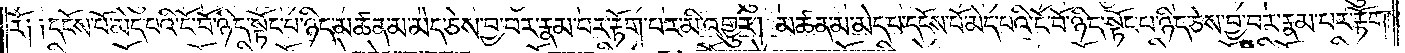རོ༏ ༏དངོས་པོ་མེད་པའི་ངོ་བོ་ཉིད་སྟོང་པ་ཉིད་མཚན་མ་མེད་ཅེས་བྱ་བར་རྣམ་པར་རྟོག་པར་མི་འགྱུར། མཚན་མ་མེད་པ་དངོས་པོ་མེད་པའི་ངོ་བོ་ཉིད་སྟོང་པ་ཉིད་ཅེས་བྱ་བར་རྣམ་པར་རྟོག་
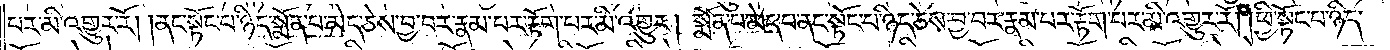པར་མི་འགྱུར་རོ། །ནང་སྟོང་པ་ཉིད་སྨོན་པ་མེད་ཅེས་བྱ་བར་རྣམ་པར་རྟོག་པར་མི་འགྱུར། སྨོན་པ་མེད་པ་ནང་སྟོང་པ་ཉིད་ཅེས་བྱ་བར་རྣམ་པར་རྟོག་པར་མི་འགྱུར་རོ། །ཕྱི་སྟོང་པ་ཉིད་
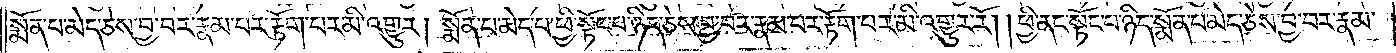སྨོན་པ་མེད་ཅེས་བྱ་བར་རྣམ་པར་རྟོག་པར་མི་འགྱུར། སྨོན་པ་མེད་པ་ཕྱི་སྟོང་པ་ཉིད་ཅེས་བྱ་བར་རྣམ་པར་རྟོག་པར་མི་འགྱུར་རོ། །ཕྱི་ནང་སྟོང་པ་ཉིད་སྨོན་པ་མེད་ཅེས་བྱ་བར་རྣམ་
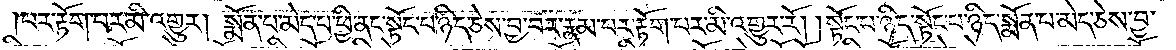པར་རྟོག་པར་མི་འགྱུར། སྨོན་པ་མེད་པ་ཕྱི་ནང་སྟོང་པ་ཉིད་ཅེས་བྱ་བར་རྣམ་པར་རྟོག་པར་མི་འགྱུར་རོ། །སྟོང་པ་ཉིད་སྟོང་པ་ཉིད་སྨོན་པ་མེད་ཅེས་བྱ་
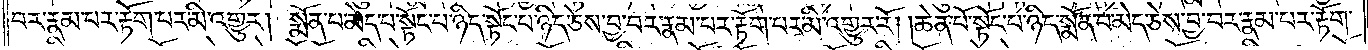བར་རྣམ་པར་རྟོག་པར་མི་འགྱུར། སྨོན་པ་མེད་པ་སྟོང་པ་ཉིད་སྟོང་པ་ཉིད་ཅེས་བྱ་བར་རྣམ་པར་རྟོག་པར་མི་འགྱུར་རོ། །ཆེན་པོ་སྟོང་པ་ཉིད་སྨོན་པ་མེད་ཅེས་བྱ་བར་རྣམ་པར་རྟོག་
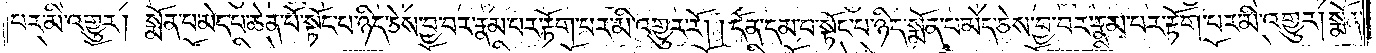པར་མི་འགྱུར། སྨོན་པ་མེད་པ་ཆེན་པོ་སྟོང་པ་ཉིད་ཅེས་བྱ་བར་རྣམ་པར་རྟོག་པར་མི་འགྱུར་རོ། །དོན་དམ་པ་སྟོང་པ་ཉིད་སྨོན་པ་མེད་ཅེས་བྱ་བར་རྣམ་པར་རྟོག་པར་མི་འགྱུར། སྨོན་
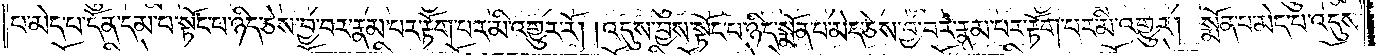པ་མེད་པ་དོན་དམ་པ་སྟོང་པ་ཉིད་ཅེས་བྱ་བར་རྣམ་པར་རྟོག་པར་མི་འགྱུར་རོ། །འདུས་བྱས་སྟོང་པ་ཉིད་སྨོན་པ་མེད་ཅེས་བྱ་བར་རྣམ་པར་རྟོག་པར་མི་འགྱུར། །སྨོན་པ་མེད་པ་འདུས་
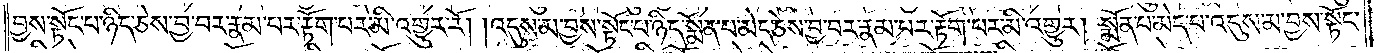བྱས་སྟོང་པ་ཉིད་ཅེས་བྱ་བར་རྣམ་པར་རྟོག་པར་མི་འགྱུར་རོ། །འདུས་མ་བྱས་སྟོང་པ་ཉིད་སྨོན་པ་མེད་ཅེས་བྱ་བར་རྣམ་པར་རྟོག་པར་མི་འགྱུར། སྨོན་པ་མེད་པ་འདུས་མ་བྱས་སྟོང་
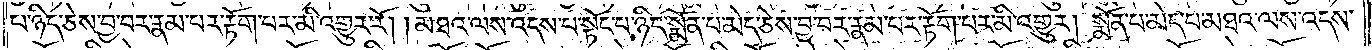པ་ཉིད་ཅེས་བྱ་བར་རྣམ་པར་རྟོག་པར་མི་འགྱུར་རོ། །མཐའ་ལས་འདས་པ་སྟོང་པ་ཉིད་སྨོན་པ་མེད་ཅེས་བྱ་བར་རྣམ་པར་རྟོག་པར་མི་འགྱུར། སྨོན་པ་མེད་པ་མཐའ་ལས་འདས་
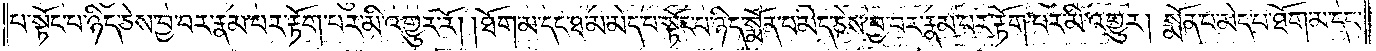པ་སྟོང་པ་ཉིད་ཅེས་བྱ་བར་རྣམ་པར་རྟོག་པར་མི་འགྱུར་རོ། །ཐོག་མ་དང་ཐ་མ་མེད་པ་སྟོང་པ་ཉིད་སྨོན་པ་མེད་ཅེས་བྱ་བར་རྣམ་པར་རྟོག་པར་མི་འགྱུར། སྨོན་པ་མེད་པ་ཐོག་མ་དང་
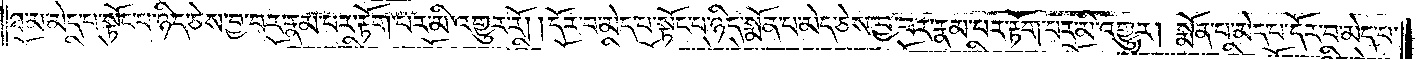ཐ་མ་མེད་པ་སྟོང་པ་ཉིད་ཅེས་བྱ་བར་རྣམ་པར་རྟོག་པར་མི་འགྱུར་རོ། །དོར་བ་མེད་པ་སྟོང་པ་ཉིད་སྨོན་པ་མེད་ཅེས་བྱ་བར་རྣམ་པར་རྟོག་པར་མི་འགྱུར། སྨོན་པ་མེད་པ་དོར་བ་མེད་པ་
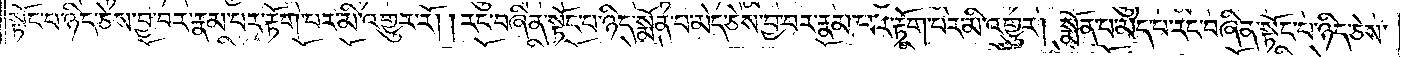སྟོང་པ་ཉིད་ཅེས་བྱ་བར་རྣམ་པར་རྟོག་པར་མི་འགྱུར་རོ། །རང་བཞིན་སྟོང་པ་ཉིད་སྨོན་པ་མེད་ཅེས་བྱ་བར་རྣམ་པར་རྟོག་པར་མི་འགྱུར། སྨོན་པ་མེད་པ་རང་བཞིན་སྟོང་པ་ཉིད་ཅེས་
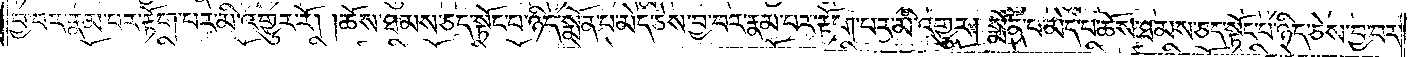བྱ་བར་རྣམ་པར་རྟོག་པར་མི་འགྱུར་རོ། །ཆོས་ཐམས་ཅད་སྟོང་པ་ཉིད་སྨོན་པ་མེད་ཅེས་བྱ་བར་རྣམ་པར་རྟོག་པར་མི་འགྱུར། སྨོན་པ་མེད་པ་ཆོས་ཐམས་ཅད་སྟོང་པ་ཉིད་ཅེས་བྱ་བར་
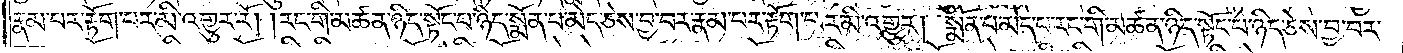རྣམ་པར་རྟོག་པར་མི་འགྱུར་རོ། །རང་གི་མཚན་ཉིད་སྟོང་པ་ཉིད་སྨོན་པ་མེད་ཅེས་བྱ་བར་རྣམ་པར་རྟོག་པར་མི་འགྱུར། སྨོན་པ་མེད་པ་རང་གི་མཚན་ཉིད་སྟོང་པ་ཉིད་ཅེས་བྱ་བར་
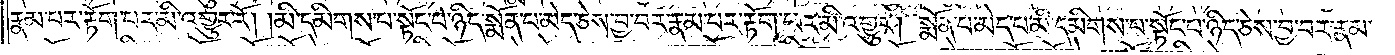རྣམ་པར་རྟོག་པར་མི་འགྱུར་རོ། །མི་དམིགས་པ་སྟོང་པ་ཉིད་སྨོན་པ་མེད་ཅེས་བྱ་བར་རྣམ་པར་རྟོག་པར་མི་འགྱུར། སྨོན་པ་མེད་པ་མི་དམིགས་པ་སྟོང་པ་ཉིད་ཅེས་བྱ་བར་རྣམ་
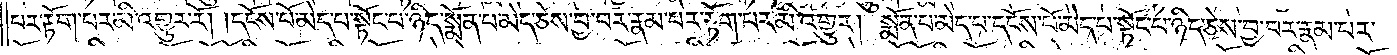པར་རྟོག་པར་མི་འགྱུར་རོ། །དངོས་པོ་མེད་པ་སྟོང་པ་ཉིད་སྨོན་པ་མེད་ཅེས་བྱ་བར་རྣམ་པར་རྟོག་པར་མི་འགྱུར། །སྨོན་པ་མེད་པ་དངོས་པོ་མེད་པ་སྟོང་པ་ཉིད་ཅེས་བྱ་བར་རྣམ་པར་
